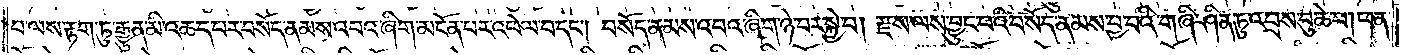བ་ལས་རྟག་ཏུ་རྒྱུན་མི་འཆད་པར་བསོད་ནམས་འབའ་ཞིག་མངོན་པར་འཕེལ་བ་དང༌། བསོད་ནམས་འབའ་ཞིག་ཉེ་བར་སྐྱེ་བ། རྫས་ལས་བྱུང་བའི་བསོད་ནམས་བྱ་བའི་གཞི་ཤིན་ཏུ་འབྲས་བུ་ཆེ་བ། ཕན་
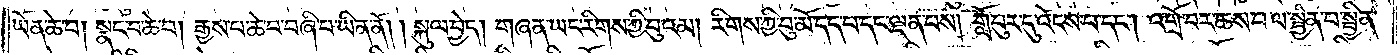ཡོན་ཆེ་བ། སྣང་བ་ཆེ་བ། རྒྱས་པ་ཆེ་བ་བཞི་པ་ཡིན་ནོ། །སྐུལ་བྱེད། གཞན་ཡང་རིགས་ཀྱི་བུའམ། རིགས་ཀྱི་བུ་མོ་དད་པ་དང་ལྡན་པས། གློ་བུར་དུ་འོངས་པ་དང༌། འགྲོ་བར་ཆས་པ། སྦྱིན་པ་སྦྱིན་
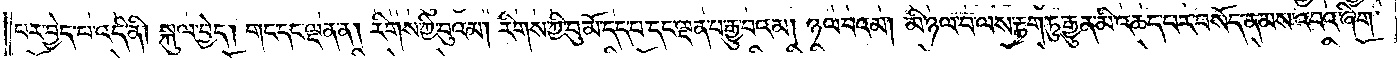པར་བྱེད་པ་འདི་ནི། སྐུལ་བྱེད། གང་དང་ལྡན་ན། རིགས་ཀྱི་བུའམ། རིགས་ཀྱི་བུ་མོ་དད་པ་དང་ལྡན་པ་རྒྱུ་བའམ། ཉལ་བའམ། མི་ཉལ་བ་ལས་རྟག་ཏུ་རྒྱུན་མི་འཆད་པར་བསོད་ནམས་འབའ་ཞིག་
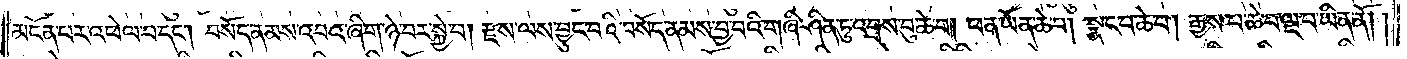མངོན་པར་འཕེལ་བ་དང༌། བསོད་ནམས་འབའ་ཞིག་ཉེ་བར་སྐྱེ་བ། རྫས་ལས་བྱུང་བའི་བསོད་ནམས་བྱ་བའི་གཞི་ཤིན་ཏུ་འབྲས་བུ་ཆེ་བ། ཕན་ཡོན་ཆེ་བ། སྣང་བ་ཆེ་བ། རྒྱས་པ་ཆེ་བ་ལྔ་པ་ཡིན་ནོ། །
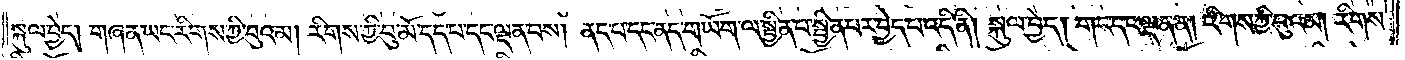སྐུལ་བྱེད། གཞན་ཡང་རིགས་ཀྱི་བུའམ། རིགས་ཀྱི་བུ་མོ་དད་པ་དང་ལྡན་པས། ནད་པ་དང་ནད་གཡོག་ལ་སྦྱིན་པ་སྦྱིན་པར་བྱེད་པ་འདི་ནི། སྐུལ་བྱེད། གང་དང་ལྡན་ན། རིགས་ཀྱི་བུའམ། རིགས་
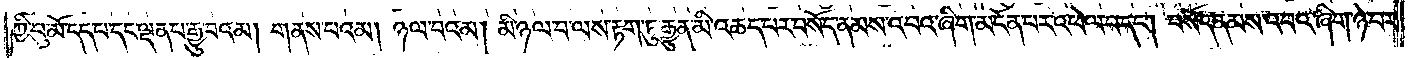ཀྱི་བུ་མོ་དད་པ་དང་ལྡན་པ་རྒྱུ་བའམ། གནས་པའམ། ཉལ་བའམ། མི་ཉལ་བ་ལས་རྟག་ཏུ་རྒྱུན་མི་འཆད་པར་བསོད་ནམས་འབའ་ཞིག་མངོན་པར་འཕེལ་བ་དང༌། བསོད་ནམས་འབའ་ཞིག་ཉེ་བར་
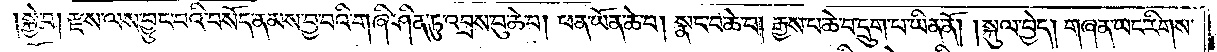།སྐྱེ་བ། རྫས་ལས་བྱུང་བའི་བསོད་ནམས་བྱ་བའི་གཞི་ཤིན་ཏུ་འབྲས་བུ་ཆེ་བ། ཕན་ཡོན་ཆེ་བ། སྣང་བ་ཆེ་བ། རྒྱས་པ་ཆེ་བ་དྲུག་པ་ཡིན་ནོ། །སྐུལ་བྱེད། གཞན་ཡང་རིགས་
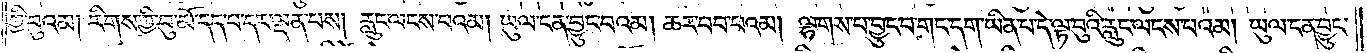ཀྱི་བུའམ། རིགས་ཀྱི་བུ་མོ་དད་པ་དང་ལྡན་པས། རླུང་ལངས་པའམ། ཡུལ་ངན་བྱུང་བའམ། ཆར་བབ་པའམ། ལྷགས་པ་བྱུང་བ་གང་དག་ཡིན་པ་དེ་ལྟ་བུའི་རླུང་ལངས་པའམ། ཡུལ་ངན་བྱུང་
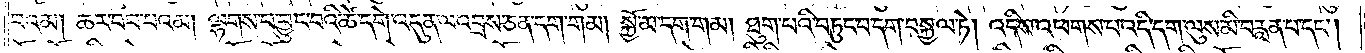བའམ། ཆར་བབ་པའམ། ལྷགས་པ་བྱུང་བའི་ཚེ་དགེ་འདུན་ལ་འབྲས་ཅན་དག་གམ། སྐྱོ་མ་དག་གམ། ཐུག་པའི་བཏུང་བ་དག་བསྐྱལ་ཏེ། འདིས་འཕགས་པ་འདི་དག་ལུས་མི་བརླན་པ་དང༌།
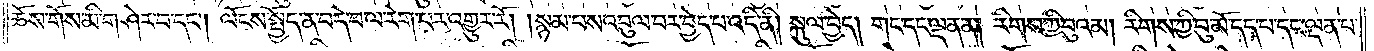ཆོས་གོས་མི་གཤེར་བ་དང༌། ལོངས་སྤྱོད་ན་བདེ་བ་ལ་རེག་པར་འགྱུར་རོ། །སྙམ་པས་འབུལ་བར་བྱེད་པ་འདི་ནི། སྐུལ་བྱེད། གང་དང་ལྡན་ན། རིགས་ཀྱི་བུའམ། རིགས་ཀྱི་བུ་མོ་དད་པ་དང་ལྡན་པ་
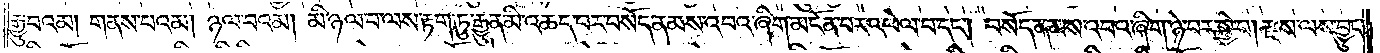རྒྱུ་བའམ། གནས་པའམ། ཉལ་བའམ། མི་ཉལ་བ་ལས་རྟག་ཏུ་རྒྱུན་མི་འཆད་པར་བསོད་ནམས་འབའ་ཞིག་མངོན་པར་འཕེལ་བ་དང༌། བསོད་ནམས་འབའ་ཞིག་ཉེ་བར་སྐྱེ་བ། རྫས་ལས་བྱུང་
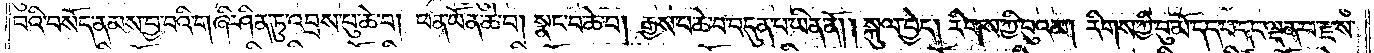བའི་བསོད་ནམས་བྱ་བའི་གཞི་ཤིན་ཏུ་འབྲས་བུ་ཆེ་བ། ཕན་ཡོན་ཆེ་བ། སྣང་བ་ཆེ་བ། རྒྱས་པ་ཆེ་བ་བདུན་པ་ཡིན་ནོ། །སྐུལ་བྱེད། རིགས་ཀྱི་བུའམ། རིགས་ཀྱི་བུ་མོ་དད་པ་དང་ལྡན་པ་རྫས་
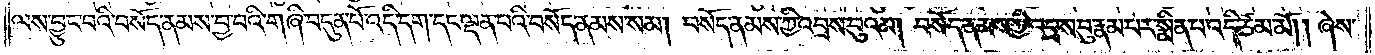ལས་བྱུང་བའི་བསོད་ནམས་བྱ་བའི་གཞི་བདུན་པོ་འདི་དག་དང་ལྡན་པའི་བསོད་ནམས་སམ། བསོད་ནམས་ཀྱི་འབྲས་བུའམ། བསོད་ནམས་ཀྱི་འབྲས་བུ་རྣམ་པར་སྨིན་པ་འདི་ཙམ་མོ། །ཞེས་
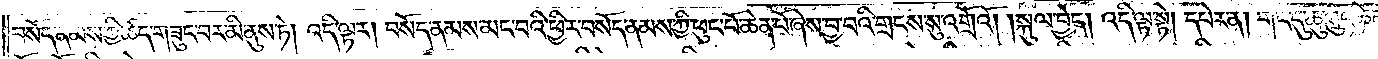བསོད་ནམས་ཀྱི་ཚད་གཟུང་བར་མི་ནུས་ཏེ། འདི་ལྟར། བསོད་ནམས་མང་བའི་ཕྱིར་བསོད་ནམས་ཀྱི་ཕུང་པོ་ཆེན་པོ་ཞེས་བྱ་བའི་གྲངས་སུ་འགྲོའོ། །སྐུལ་བྱེད། འདི་ལྟ་སྟེ། དཔེར་ན། གང་དུ་ཆུ་ཀླུང་ཆེན་
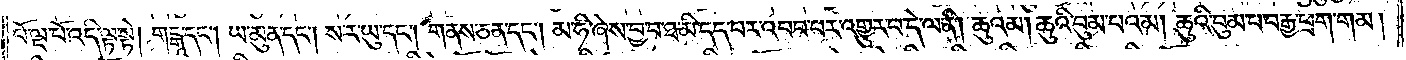པོ་ལྔ་པོ་འདི་ལྟ་སྟེ། གངྒཱ་དང༌། ཡ་མུན་དང༌། ས་ར་ཡུ་དང༌། གནས་ཅན་དང༌། མ་ཧི་ཞེས་བྱ་བ་ཐ་མི་དད་པར་འབབ་པར་འགྱུར་བ་དེ་ལ་ནི། ཆུའམ། ཆུའི་བུམ་པའམ། ཆུའི་བུམ་པ་བརྒྱ་ཕྲག་གམ།
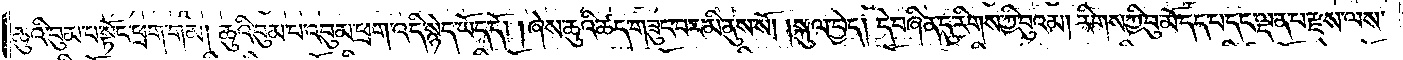ཆུའི་བུམ་པ་སྟོང་ཕྲག་གམ། ཆུའི་བུམ་པ་འབུམ་ཕྲག་འདི་སྙེད་ཡོད་དོ། །ཞེས་ཆུའི་ཚད་གཟུང་བར་མི་ནུས་སོ། །སྐུལ་བྱེད། དེ་བཞིན་དུ་རིགས་ཀྱི་བུའམ། རིགས་ཀྱི་བུ་མོ་དད་པ་དང་ལྡན་པ་རྫས་ལས་
